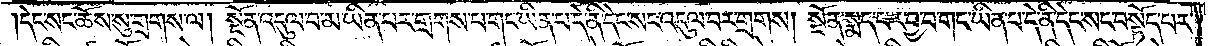དེང་སངས་ཆོས་སུ་གྲགས་ལ། སྔོན་འདུལ་བ་མ་ཡིན་པར་གྲགས་པ་གང་ཡིན་པ་དེ་ནི་དེང་སང་འདུལ་བར་གྲགས། སྔོན་སྨད་པར་བྱ་བ་གང་ཡིན་པ་དེ་ནི་དེང་སང་བསྟོད་པར་
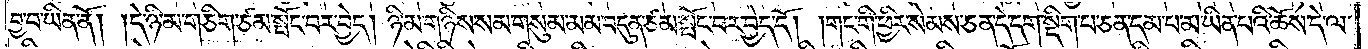བྱ་བ་ཡིན་ནོ། །དེ་ཉི་མ་གཅིག་ཙམ་སྤོང་བར་བྱེད། ཉི་མ་གཉིས་སམ་གསུམ་མམ་བདུན་ཙམ་སྤོང་བར་བྱེད་དོ། །གང་གི་ཕྱིར་སེམས་ཅན་དེ་དག་སྡིག་པ་ཅན་དམ་པ་མ་ཡིན་པའི་ཆོས་དེ་ལ་
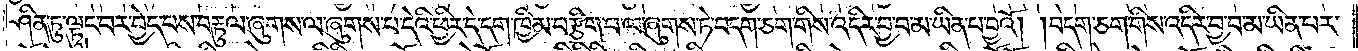ཤིན་ཏུ་ལྟུང་བར་བྱེད་པས་བརྟུལ་ཞུགས་ལ་ཞུགས་པ་དེའི་ཕྱིར་དེ་དག་ཁྱིམ་བརྩིག་པ་ལ་ཞུགས་ཏེ་བདག་ཅག་གིས་འདིར་བྱ་བ་མ་ཡིན་པ་བྱའོ། །བདག་ཅག་གིས་འདིར་བྱ་བ་མ་ཡིན་པར་
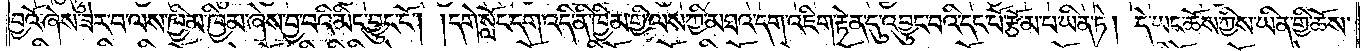བྱའོ་ཞེས་ཟེར་བ་ལས་ཁྱིམ་ཁྱིམ་ཞེས་བྱ་བའི་མིང་བྱུང་ངོ༌། །དགེ་སློང་དག་འདི་ནི་ཁྱིམ་གྱི་ལས་ཀྱི་མཐའ་དག་འཇིག་རྟེན་དུ་འབྱུང་བའི་དང་པོ་རྩོམ་པ་ཡིན་ཏེ། དེ་ཡང་ཆོས་ཀྱིས་ཡིན་གྱི་ཆོས་
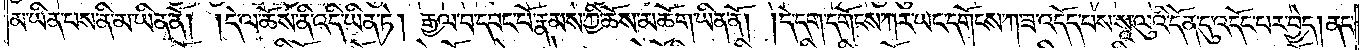མ་ཡིན་པས་ནི་མ་ཡིན་ནོ། །དེ་ལ་ཆོས་ནི་འདི་ཡིན་ཏེ། རྒྱལ་བ་དབང་པོ་རྣམས་ཀྱི་ཆོས་མཆོག་ཡིན་ནོ། །དེ་དག་དགོངས་ཀར་ཡང་དགོངས་ཀ་ཟ་འདོད་པས་སཱ་ལུའི་དོན་དུ་འདོང་པར་བྱེད། ནང་
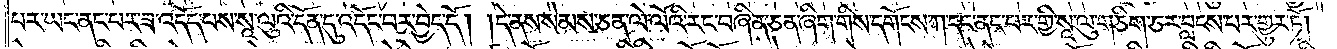པར་ཡང་ནང་པར་ཟ་འདོད་པས་སཱ་ལུའི་དོན་དུ་འདོང་བར་བྱེད་དོ། །དེ་ནས་སེམས་ཅན་ལེ་ལོའི་རང་བཞིན་ཅན་ཞིག་གིས་དགོངས་ཀ་དང་ངན་པར་གྱི་སཱ་ལུ་གཅིག་ཅར་བླངས་པར་གྱུར་ཏོ། །
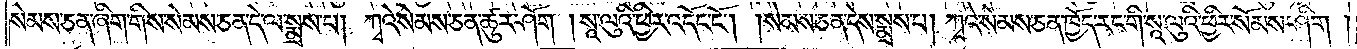སེམས་ཅན་ཞིག་གིས་སེམས་ཅན་དེ་ལ་སྨྲས་པ། ཀྭའེ་སེམས་ཅན་ཚུར་ཤོག །སཱ་ལུའི་ཕྱིར་འདོང་ངོ༌། །སེམས་ཅན་དེས་སྨྲས་པ། ཀྭའེ་སེམས་ཅན་ཁྱོད་རང་གི་སཱ་ལུའི་ཕྱིར་སོམས་ཤིག །
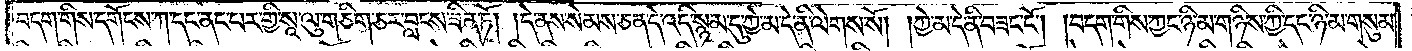བདག་གིས་དགོངས་ཀ་དང་ནང་པར་གྱི་སཱ་ལུ་གཅིག་ཅར་བླངས་ཟིན་ཏོ། །དེ་ནས་སེམས་ཅན་དེ་འདི་སྙམ་དུ་ཀྱེ་མ་དེ་ནི་ལེགས་སོ། །ཀྱེ་མ་དེ་ནི་བཟང་ངོ༌། །བདག་གིས་ཀྱང་ཉི་མ་གཉིས་ཀྱི་དང་ཉི་མ་གསུམ་
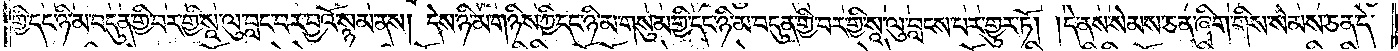གྱི་དང་ཉི་མ་བདུན་གྱི་བར་གྱི་སཱ་ལུ་བླང་བར་བྱའོ་སྙམ་ནས། དེས་ཉི་མ་གཉིས་ཀྱི་དང་ཉི་མ་གསུམ་གྱི་དང་ཉི་མ་བདུན་གྱི་བར་གྱི་སཱ་ལུ་བླངས་པར་གྱུར་ཏོ། །དེ་ནས་སེམས་ཅན་ཞིག་གིས་སེམས་ཅན་དེ་
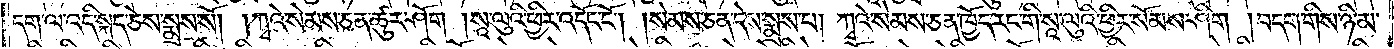དག་ལ་འདི་སྐད་ཅེས་སྨྲས་སོ། །ཀྭའེ་སེམས་ཅན་ཚུར་ཤོག །སཱ་ལུའི་ཕྱིར་འདོང་ངོ༌། །སེམས་ཅན་དེས་སྨྲས་པ། ཀྭའེ་སེམས་ཅན་ཁྱོད་རང་གི་སཱ་ལུའི་ཕྱིར་སོམས་ཤིག །བདག་གིས་ཉི་མ་
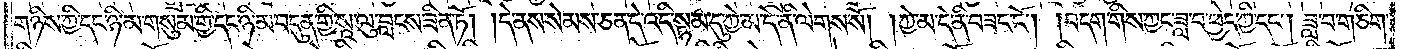གཉིས་ཀྱི་དང་ཉི་མ་གསུམ་གྱི་དང་ཉི་མ་བདུན་གྱི་སཱ་ལུ་བླངས་ཟིན་ཏོ། །དེ་ནས་སེམས་ཅན་དེ་འདི་སྙམ་དུ་ཀྱེ་མ་དེ་ནི་ལེགས་སོ། །ཀྱེ་མ་དེ་ནི་བཟང་ངོ༌། །བདག་གིས་ཀྱང་ཟླ་བ་ཕྱེད་ཀྱི་དང༌། ཟླ་བ་གཅིག་
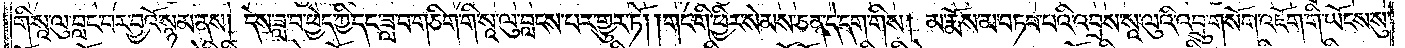གི་སཱ་ལུ་བླང་བར་བྱའོ་སྙམ་ནས། དེས་ཟླ་བ་ཕྱེད་ཀྱི་དང་ཟླ་བ་གཅིག་གི་སཱ་ལུ་བླངས་པར་གྱུར་ཏོ། །གང་གི་ཕྱིར་སེམས་ཅན་དེ་དག་གིས། མ་རྨོས་མ་བཏབ་པའི་འབྲས་སཱ་ལུའི་འབྲུ་གསོག་འཇོག་གི་ཡོངས་སུ་
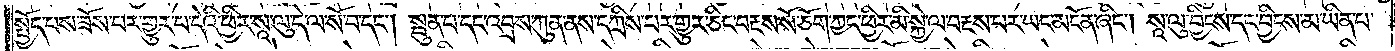སྤྱོད་པས་ཟོས་པར་གྱུར་པ་དེའི་ཕྱིར་སཱ་ལུ་དེ་ལ་སོ་བ་དང༌། སྦུན་པ་དང་འབྲས་ཀུན་ནས་དཀྲིས་པར་གྱུར་ཅིང་བརྔས་སོ་ཅོག་ཀྱང་ཕྱིར་མི་སྐྱེ་ལ་བརྔས་པར་ཡང་མངོན་ཞིང༌། སཱ་ལུ་བྱིངས་དང་བྱིངས་མ་ཡིན་པ་
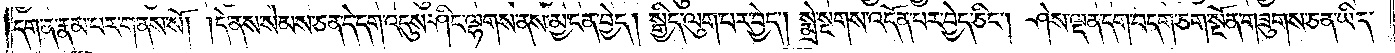དག་ན་རྣམ་པར་གནས་སོ། །དེ་ནས་སེམས་ཅན་དེ་དག་འདུས་ཤིང་ལྷགས་ནས་མྱ་ངན་བྱེད། སྒྱིད་ལུག་པར་བྱེད། སྨྲེ་སྔགས་འདོན་པར་བྱེད་ཅིང༌། ཤེས་ལྡན་དག་བདག་ཅག་སྔོན་གཟུགས་ཅན་ཡིད་
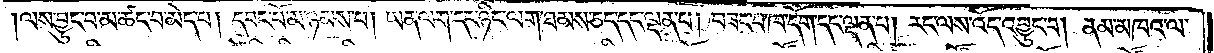ལས་བྱུང་བ་མ་ཚང་བ་མེད་པ། དབང་པོ་མ་ཉམས་པ། ཡན་ལག་དང་ཉིང་ལག་ཐམས་ཅད་དང་ལྡན་པ། བཟང་བ་ཁ་དོག་དང་ལྡན་པ། རང་ལས་འོད་འབྱུང་བ། ནམ་མཁའ་ལ་
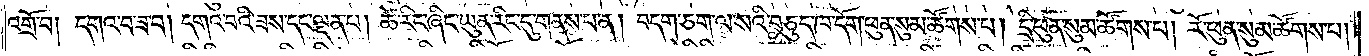འགྲོ་བ། དགའ་བ་ཟ་བ། དགའ་བའི་ཟས་དང་ལྡན་པ། ཚེ་རིང་ཞིང་ཡུན་རིང་དུ་གནས་པ་ན། བདག་ཅག་ལ་སའི་བཅུད་ཁ་དོག་ཕུན་སུམ་ཚོགས་པ། དྲི་ཕུན་སུམ་ཚོགས་པ། རོ་ཕུན་སུམ་ཚོགས་པ།
